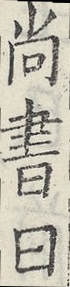尚書曰
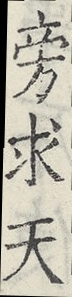旁求天
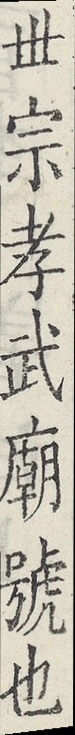世宗孝武廟號也
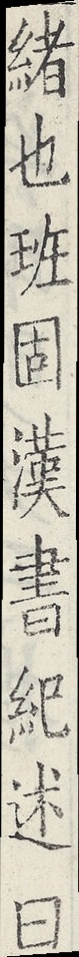緒也班固漢書紀述曰
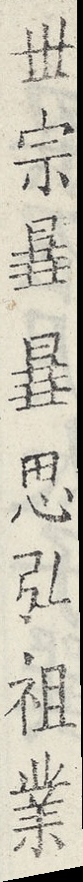世宗嘩嘩思弘祖業
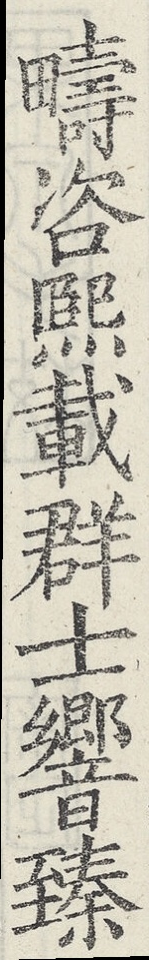疇咨熙載群士響臻
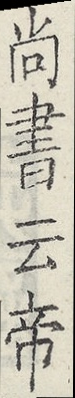尚書云帝
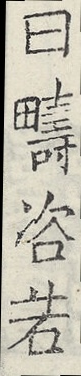曰疇咨若
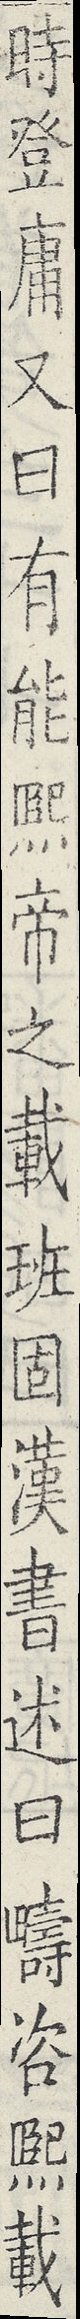時登庸又曰有能熙帝之載班固漢書述曰疇咨熙載
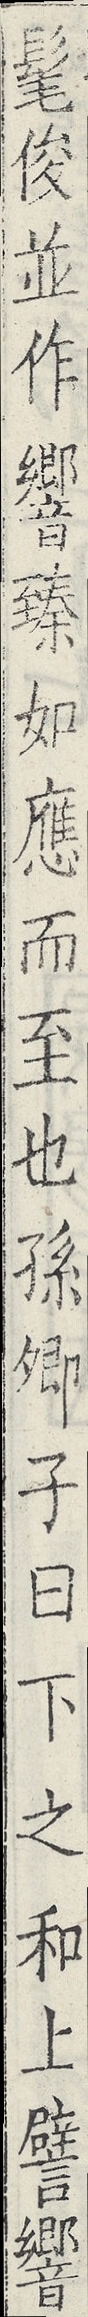髦俊並作響臻如應而至也孫卿子曰下之和上譬響
